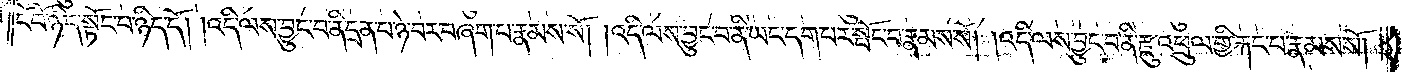ངོ་བོ་ཉིད་སྟོང་པ་ཉིད་དོ། །འདི་ལས་བྱུང་བ་ནི་དྲན་པ་ཉེ་བར་བཞག་པ་རྣམས་སོ། །འདི་ལས་བྱུང་བ་ནི་ཡང་དག་པར་སྤོང་བ་རྣམས་སོ། །འདི་ལས་བྱུང་བ་ནི་རྫུ་འཕྲུལ་གྱི་རྐང་པ་རྣམས་སོ། །
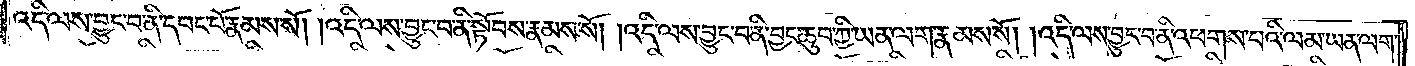འདི་ལས་བྱུང་བ་ནི་དབང་པོ་རྣམས་སོ། །འདི་ལས་བྱུང་བ་ནི་སྟོབས་རྣམས་སོ། །འདི་ལས་བྱུང་བ་ནི་བྱང་ཆུབ་ཀྱི་ཡན་ལག་རྣམས་སོ། །འདི་ལས་བྱུང་བ་ནི་འཕགས་པའི་ལམ་ཡན་ལག་
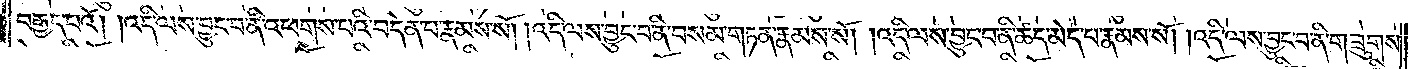བརྒྱད་པའོ། །འདི་ལས་བྱུང་བ་ནི་འཕགས་པའི་བདེན་པ་རྣམས་སོ། །འདི་ལས་བྱུང་བ་ནི་བསམ་གཏན་རྣམས་སོ། །འདི་ལས་བྱུང་བ་ནི་ཚད་མེད་པ་རྣམས་སོ། །འདི་ལས་བྱུང་བ་ནི་གཟུགས་
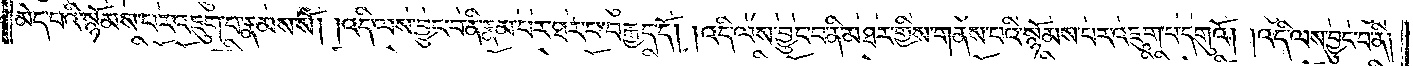མེད་པའི་སྙོམས་བར་འཇུག་པ་རྣམས་སོ། །འདི་ལས་བྱུང་བ་ནི་རྣམ་པར་ཐར་པ་བརྒྱད་དོ། །འདི་ལས་བྱུང་བ་ནི་མཐར་གྱིས་གནས་པའི་སྙོམས་པར་འཇུག་པ་དགུའོ། །འདི་ལས་བྱུང་བ་ནི།
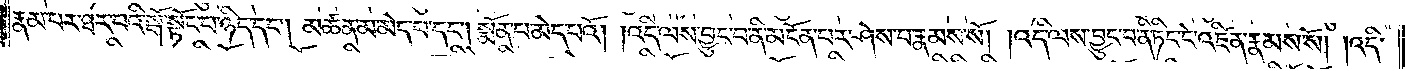རྣམ་པར་ཐར་པའི་སྒོ་སྟོང་པ་ཉིད་དང༌། མཚན་མ་མེད་པ་དང༌། སྨོན་པ་མེད་པའོ། །འདི་ལས་བྱུང་བ་ནི་མངོན་པར་ཤེས་པ་རྣམས་སོ། །འདི་ལས་བྱུང་བ་ནི་ཏིང་ངེ་འཛིན་རྣམས་སོ། །འདི་
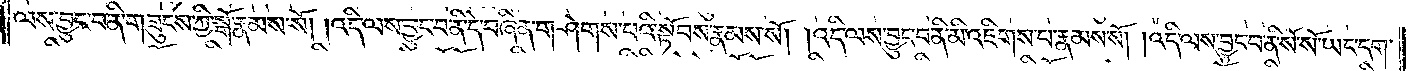ལས་བྱུང་བ་ནི་གཟུངས་ཀྱི་སྒོ་རྣམས་སོ། །འདི་ལས་བྱུང་བ་ནི་དེ་བཞིན་གཤེགས་པའི་སྟོབས་རྣམས་སོ། །འདི་ལས་བྱུང་བ་ནི་མི་འཇིགས་པ་རྣམས་སོ། །འདི་ལས་བྱུང་བ་ནི་སོ་སོ་ཡང་དག་
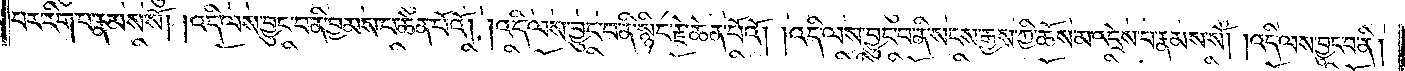པར་རིག་པ་རྣམས་སོ། །འདི་ལས་བྱུང་བ་ནི་བྱམས་པ་ཆེན་པོའོ། །འདི་ལས་བྱུང་བ་ནི་སྙིང་རྗེ་ཆེན་པོའོ། །འདི་ལས་བྱུང་བ་ནི་སངས་རྒྱས་ཀྱི་ཆོས་མ་འདྲེས་པ་རྣམས་སོ། །འདི་ལས་བྱུང་བ་ནི།
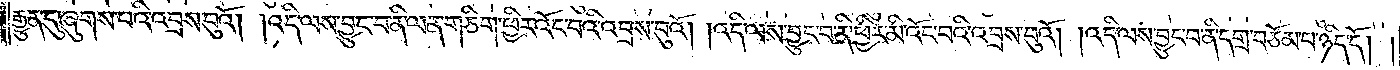རྒྱུན་དུ་ཞུགས་པའི་འབྲས་བུའོ། །འདི་ལས་བྱུང་བ་ནི་ལན་ཅིག་ཕྱིར་འོང་བའི་འབྲས་བུའོ། །འདི་ལས་བྱུང་བ་ནི་ཕྱིར་མི་འོང་བའི་འབྲས་བུའོ། །འདི་ལས་བྱུང་བ་ནི་དགྲ་བཅོམ་པ་ཉིད་དོ། །
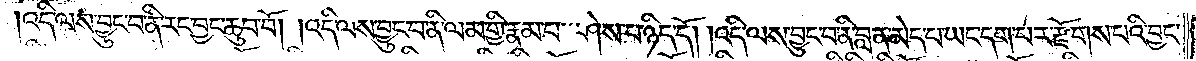འདི་ལས་བྱུང་བ་ནི་རང་བྱང་ཆུབ་བོ། །འདི་ལས་བྱུང་བ་ནི་ལམ་གྱི་རྣམ་པ་ཤེས་པ་ཉིད་དོ། །འདི་ལས་བྱུང་བ་ནི་བླ་ན་མེད་པ་ཡང་དག་པར་རྫོགས་པའི་བྱང་
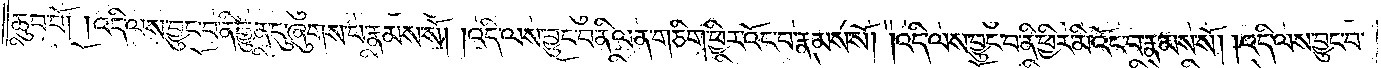ཆུབ་བོ། །འདི་ལས་བྱུང་བ་ནི་རྒྱུན་དུ་ཞུགས་པ་རྣམས་སོ། །འདི་ལས་བྱུང་བ་ནི་ལན་ཅིག་ཕྱིར་འོང་བ་རྣམས་སོ། །འདི་ལས་བྱུང་བ་ནི་ཕྱིར་མི་འོང་བ་རྣམས་སོ། །འདི་ལས་བྱུང་བ་
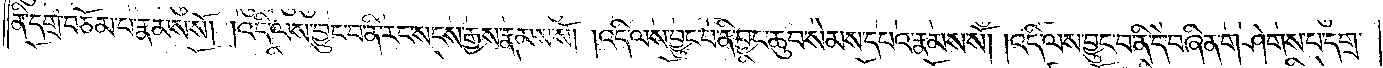ནི་དགྲ་བཅོམ་པ་རྣམས་སོ། །འདི་ལས་བྱུང་བ་ནི་རང་སངས་རྒྱས་རྣམས་སོ། །འདི་ལས་བྱུང་བ་ནི་བྱང་ཆུབ་སེམས་དཔའ་རྣམས་སོ། །འདི་ལས་བྱུང་བ་ནི་དེ་བཞིན་གཤེགས་པ་དགྲ་
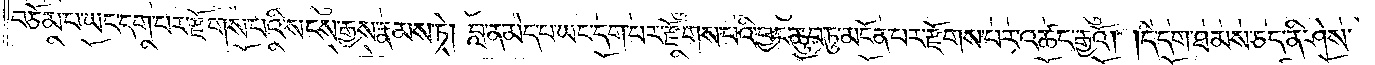བཅོམ་པ་ཡང་དག་པར་རྫོགས་པའི་སངས་རྒྱས་རྣམས་ཏེ། བླ་ན་མེད་པ་ཡང་དག་པར་རྫོགས་པའི་བྱང་ཆུབ་ཏུ་མངོན་པར་རྫོགས་པར་འཚང་རྒྱའོ། །དེ་དག་ཐམས་ཅད་ནི་ཤེས་
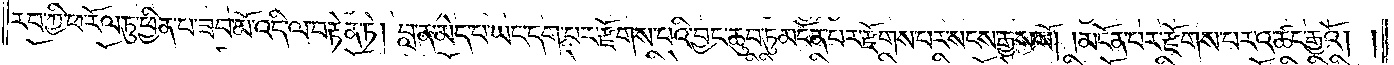རབ་ཀྱི་ཕ་རོལ་ཏུ་ཕྱིན་པ་ཟབ་མོ་འདི་ལ་བརྟེན་ཏེ། བླ་ན་མེད་པ་ཡང་དག་པར་རྫོགས་པའི་བྱང་ཆུབ་ཏུ་མངོན་པར་རྫོགས་པར་སངས་རྒྱས་སོ། །མངོན་པར་རྫོགས་པར་འཚང་རྒྱའོ། །
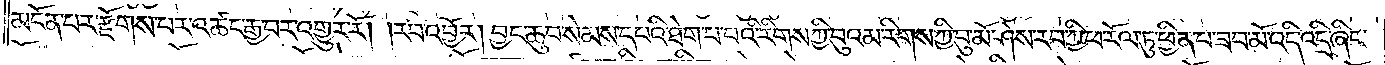མངོན་པར་རྫོགས་པར་འཚང་རྒྱ་བར་འགྱུར་རོ། །རབ་འབྱོར། བྱང་ཆུབ་སེམས་དཔའི་ཐེག་པ་པའི་རིགས་ཀྱི་བུ་འམ་རིགས་ཀྱི་བུ་མོ་ཤེས་རབ་ཀྱི་ཕ་རོལ་ཏུ་ཕྱིན་པ་ཟབ་མོ་འདི་འདྲི་ཞིང་
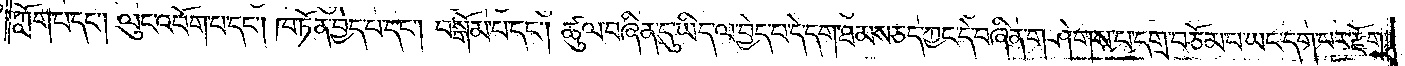ཀློག་པ་དང༌། ལུང་འབོག་པ་དང༌། ཁ་ཏོན་བྱེད་པ་དང༌། བསྒོམ་པ་དང༌། ཚུལ་བཞིན་དུ་ཡིད་ལ་བྱེད་པ་དེ་དག་ཐམས་ཅད་ཀྱང་དེ་བཞིན་གཤེགས་པ་དགྲ་བཅོམ་པ་ཡང་དག་པར་རྫོགས་
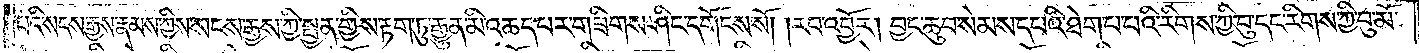པའི་སངས་རྒྱས་ཀྱིས་སངས་རྒྱས་ཀྱི་སྤྱན་གྱིས་རྟག་ཏུ་རྒྱུན་མི་འཆད་པར་གཟིགས་ཤིང་དགོངས་སོ། །རབ་འབྱོར། བྱང་ཆུབ་སེམས་དཔའི་ཐེག་པ་པའི་རིགས་ཀྱི་བུ་དང་རིགས་ཀྱི་བུ་མོ་
